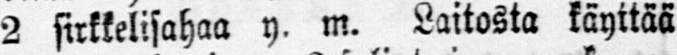2 sirkkelisahaa y. m. Laitosta käyttää
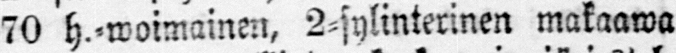70 h .-woimainen, 2-sylinterinen makaawa
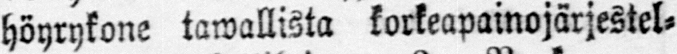höyrykone tawallista korkeapainojärjestel-
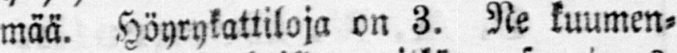mää. Höyrykattiloja on 3. Ne kuumen-
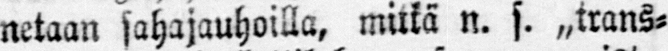netaan sahajauhoilla, mitkä n. s. „trans-
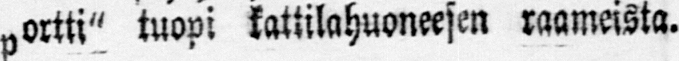portti" tuopi kattilahuoneesen raameista.
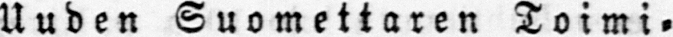Uuden Suomettaren Toimi-
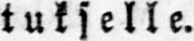tukselle.
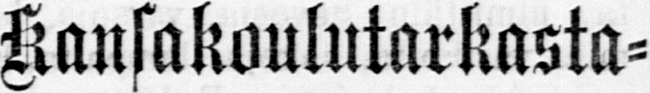Kansakoulutarkasta-
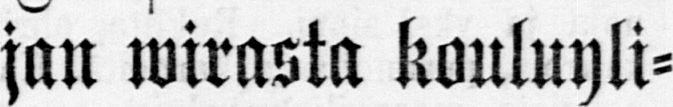jan wirasta kouluyli-
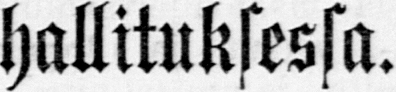hallituksessa.
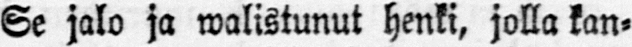Se jalo ja walistunut henki, jolla kan-
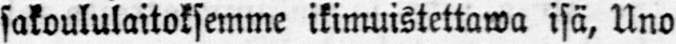sakoululaitoksemme ikimuistettawa isä, Uno
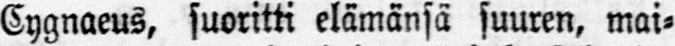Cygnaeus, suoritti elämänsä suuren, mai-
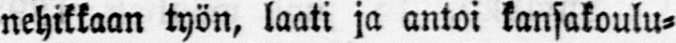nehikkaan työn, laati ja antoi kansakoulu-
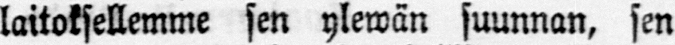laitoksellemme sen ylewän suunnan, sen
